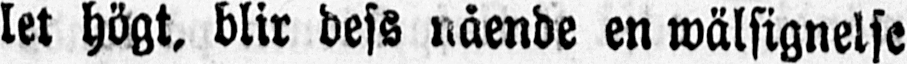let högt, blir dess nående en wälsignelse
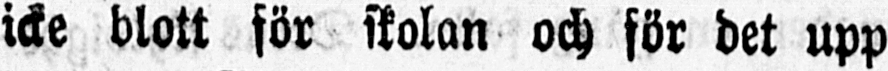icke blott för skolan och för det upp
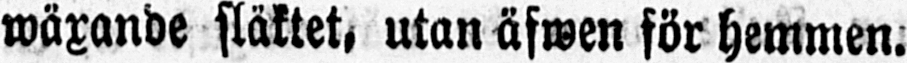wäxande släktet, utan äfwen för hemmen.
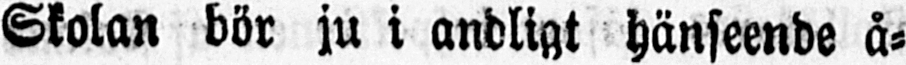Skolan bör ju i andligt hänseende å-
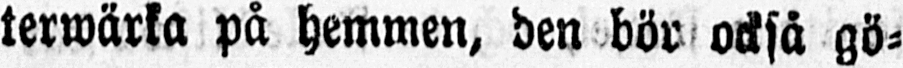terwäxla på hemmen, den bör också gö-
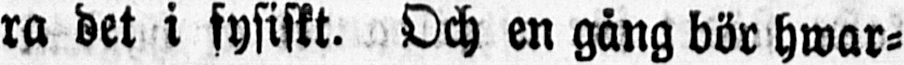ra det i fysiskt. Och en gång bör hwar-
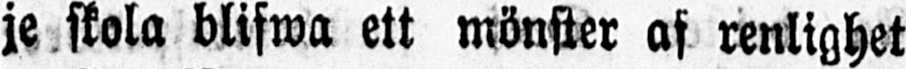je skola blifwa ett mönster af renlighet
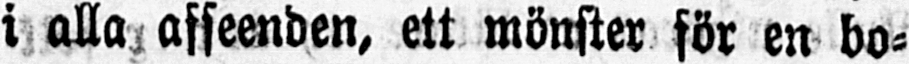i alla afseenden, ett mönster för en bo-
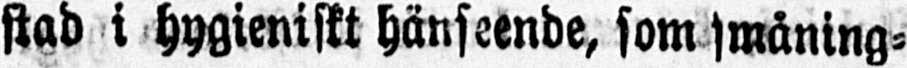stad i hygieniskt hänseende, som småning-
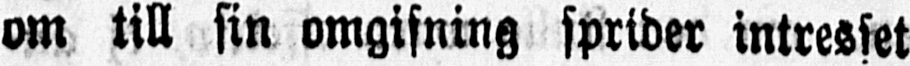om till sin omgifning sprider intresset
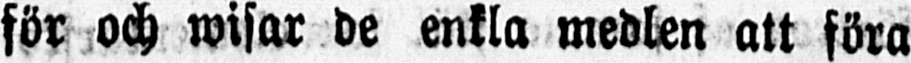för och wisar de enkla medlen att föra
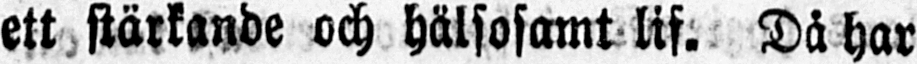ett stärkande och hälsosamt lif. Då har
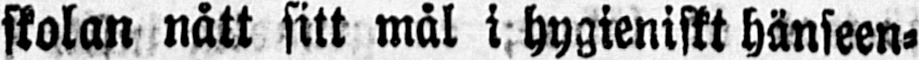skolan nått sitt mål i hygieniskt hänseen-
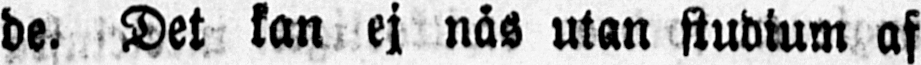de. Det kan ej nås utan studium af
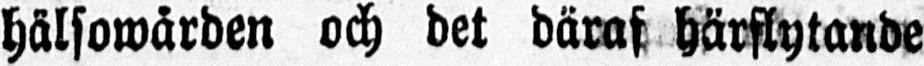hälsowården och det däraf härflytande
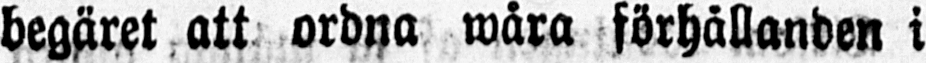begäret att ordna wåra förhållanden i
